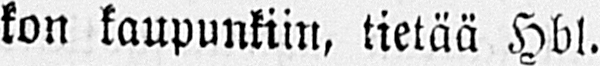kon kaupunkiin, tietää Hbl.
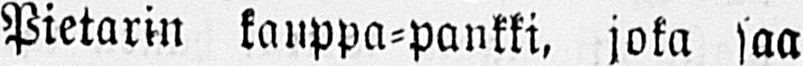Pietarin kauppa-pankki, joka saa
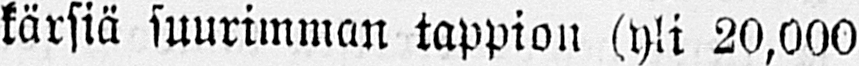kärsiä suurimman tappion (yli 20,000
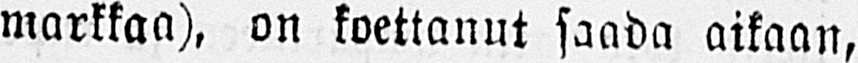markkaa), on koettanut saada aikaan,
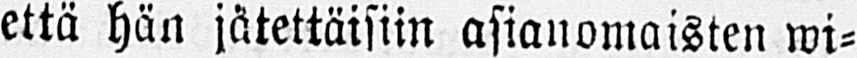että hän jätettäisiin asianomaisten wi-
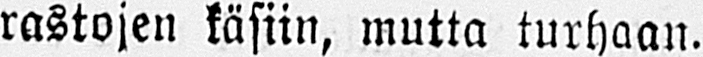rastojen käsiin, mutta turhaan.
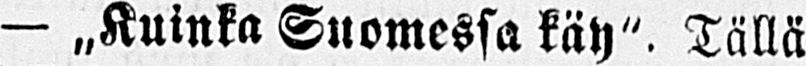— »Kuinka Suomessa käy". Tällä
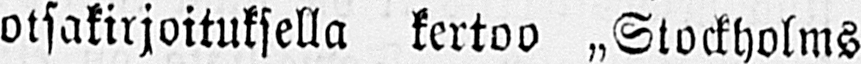otsakirjoituksella kertoo ˶Stockholms
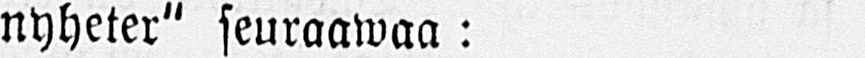Nyheter" seuraawaa:
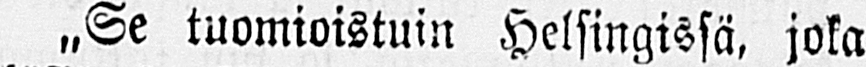˶Se tuomioistuin Helsingissä, joka
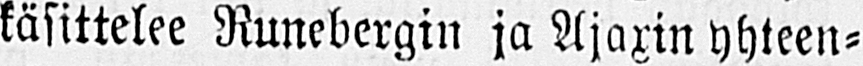käsittelee Runebergin ja Ajaxin yhteen-
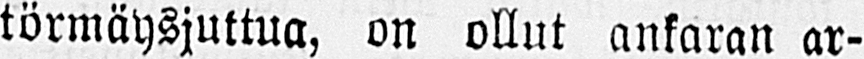törmäysjuttua, on ollut ankaran ar-
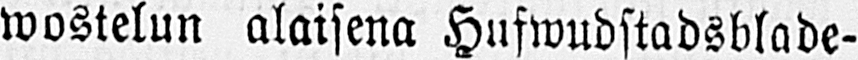wostelun alaisena Hufwudstadsblade-
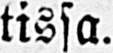tissa.
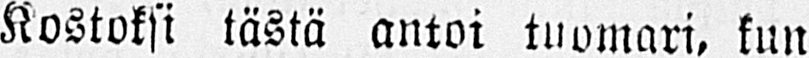Kostoksi tästä antoi tuomari, kun
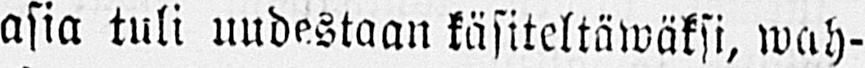asia tuli uudestaan käsiteltäwaksi, wah-
